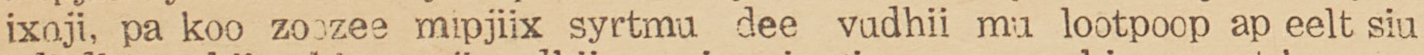ixnji,pa koo zoozee mipjiix syrtmu dee vudhii mu lootpoop ap eelt siu
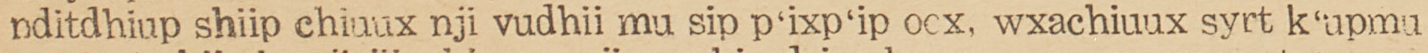nditdhiup shiip chiuux nji vudhii mu sip p'ixp'ip oox, wxachiuux syrt k'upmu
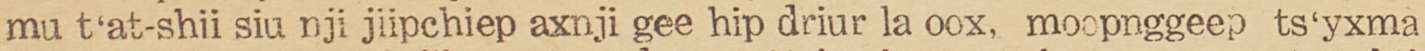mu t'at-shii siu nji jiipchiep axnji gee hip driur la oox, moopnggeep ts'yxma
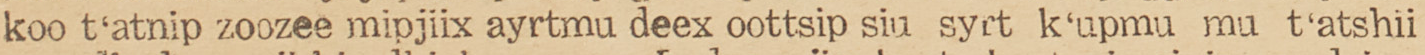koo t'atnip zoozee mipjiix ayrtmu deex oottsip siu syrt k'upmu mu t'atshii
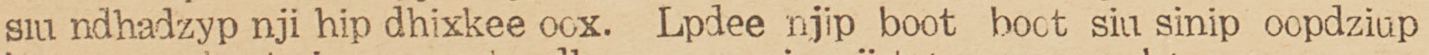siu ndhadzyp nji hip dhixkee oox. Lpdee njip boot boot siu sinip oopdziup
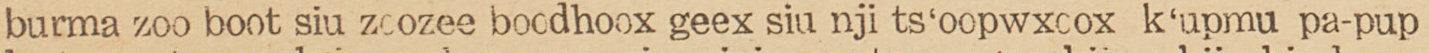burma zoo boot siu zoozee boodhoox geex siu nji ts'oopwxcox k'upmu pa'pup
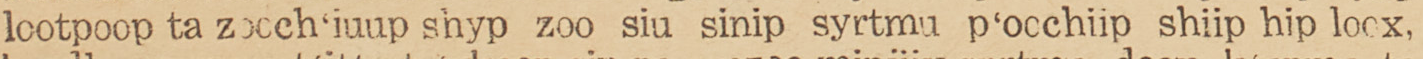lootpoop ta zooch'iuup snyp zoo siu sinip syrtmu p'occhiip shiip hip loox,
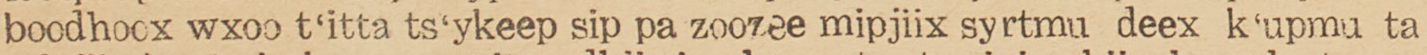boodhoox wxoo t'itta ts'ykeep sip pa zoozee mipjiix syrtmu deex k'upmu ta
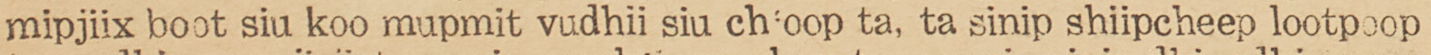mipjiix boot siu koo mupmit vudhii siu ch'oop ta, ta sinip shiipcheep lootpoop
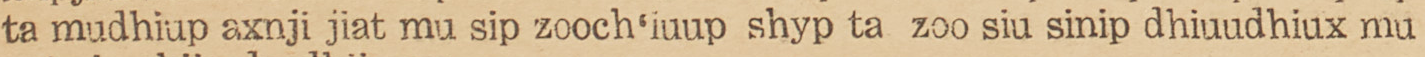ta mudhiup axnji jiat mu sip zooch'iuup shyp ta zoo siu sinip dhiuudhiux mu
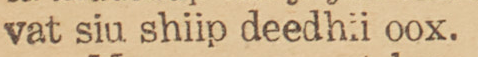vat siu shiip deedhii oox.
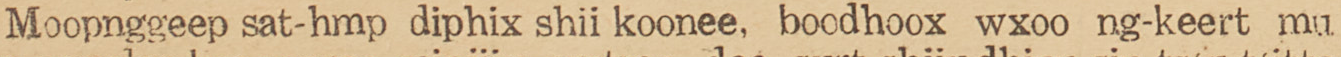Moopnggeep sat-hmp diphix shii koonee, boodhoox wxoo ng-keert mu
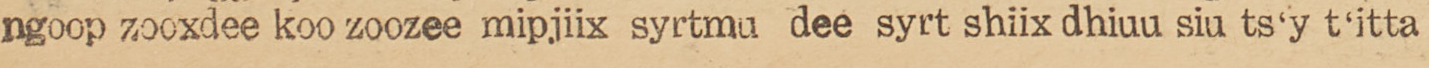ngoop zooxdee koo zoozee nipjiix syrtmu dee syrt shiix dhiuu siu ts'y t'itta
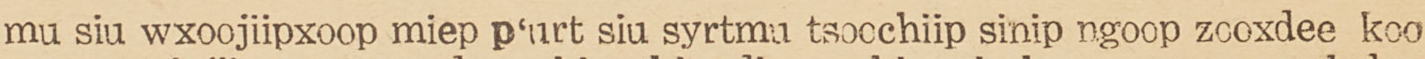mu siu wxoojiipxoop miep p'urt siu syrtmu tsoochiip sinip ngoop zooxdee koo
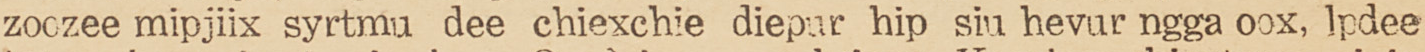zoozee mipjiix syrtmu dee chiexchie diepur hip siu hevur ngga oox, lpdee
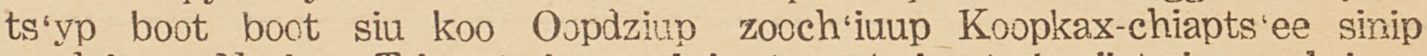ts'yp boot boot siu koo Oopdziup zooch'iuup Koopkax-chiapts'ee sinip
